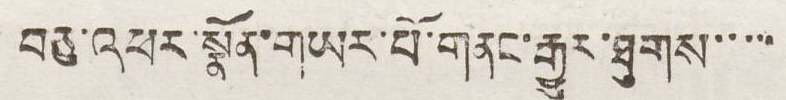བཅུ་འཕར་སྣོན་གཡར་པོ་གནང་རྒྱུར་ཐུགས་་་་་
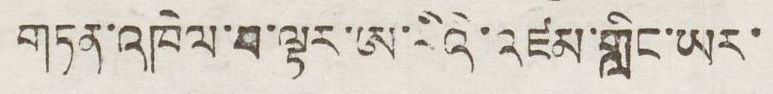གཏན་འཁེལ་བ་ལྟར་ཨ་རིའི་འཛམ་གླིང་ཡར་
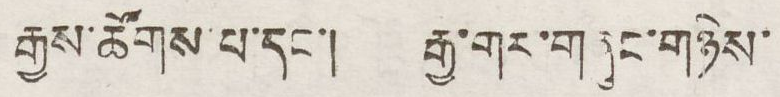རྒྱས་ཚོགས་པ་དང་། རྒྱ་གར་གཞུང་གཉིས་
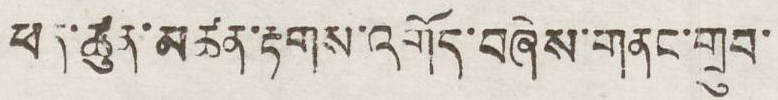ཕན་ཚུན་མཚན་རྟགས་འགོད་བཞེས་གནང་གྲུབ་
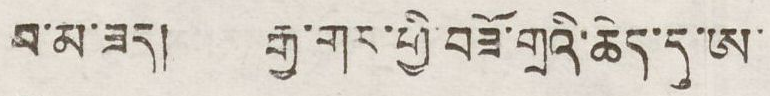བ་མ་ཟད། རྒྱ་གར་གྱི་བཟོ་གྲྭའི་ཆེད་དུ་ཨ་
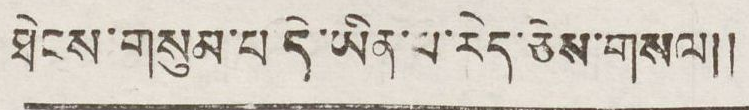ཐེངས་གསུམ་པ དེ་ཡིན་པ་རེད་ཅེས་གསལ།།
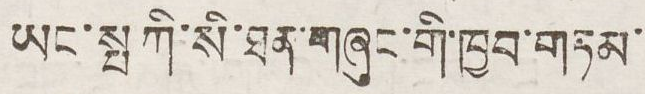ཡང་སྤ ཀི་སི་ཐན་གཞུང་གི་ཁྱབ་གཏམ་
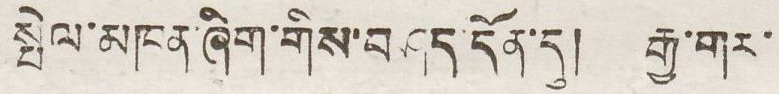སྤེལ་མཁན་ཞིག་གིས་བཤད་དོན་དུ། རྒྱ་གར་
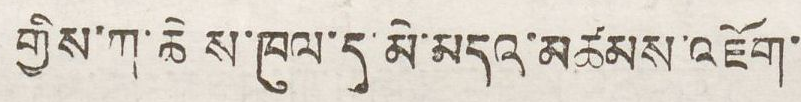གྱིས་ཀ་ཆེས་ཁུལ་དུ་མེ་མདའ་མཚམས་འཇོག་
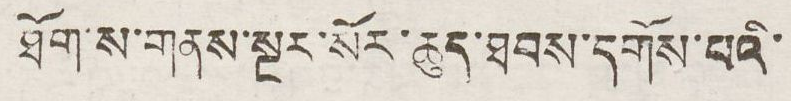ཐོག་ས་གནས་སྔར་སོར་ཆུད་ཐབས་དགོས་པའི་
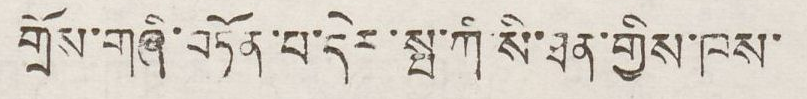གྲོས་གཞི་བཏོན་པ་དེར་སྤ་ཀི་སི་ཐན་གྱིས་ཁས་
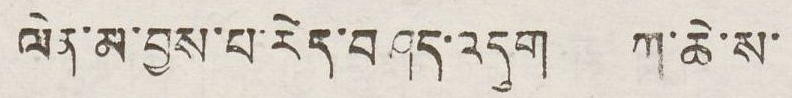ལེན་མ་བྱས་པ་རེད་བཤད་འདུག ཀ་ཆེ་ས་
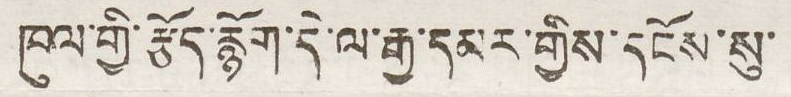ཁུལ་གྱི་རྩོད་རྙོག་དེ་ལ་རྒྱ་དམར་གྱིས་དངོས་སུ་
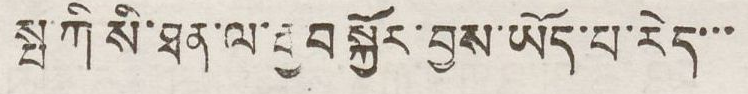སྤ་ཀི སི་ཐན་ལ་རྒྱབ་སྐྱོར་བྱས་ཡོད་པ་རེད་་་
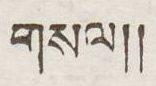གསལ།།
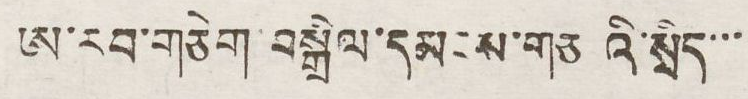ཨ་རབ་གཅིག བསྒྲེལ་དམངས་གཅའི་སྲིད་་་
